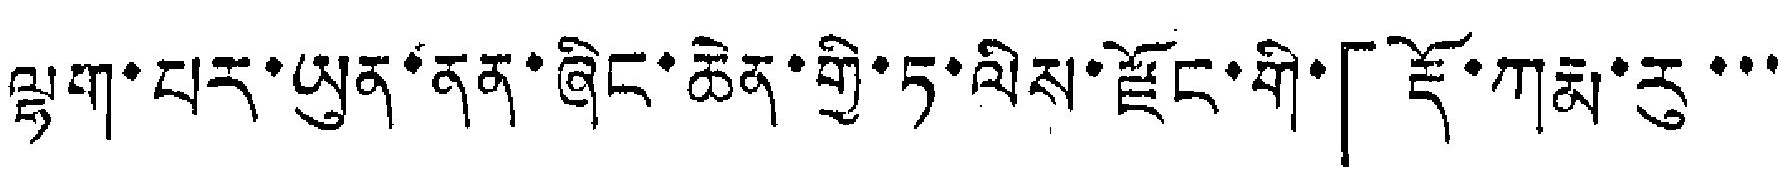ལྷག་པར་ཡུན་ནན་ཞིང་ཆེན་གྱི་ཏ་ལིས་རྫོང་གི་「རྡོ་ཀརྨ་རུ་་་
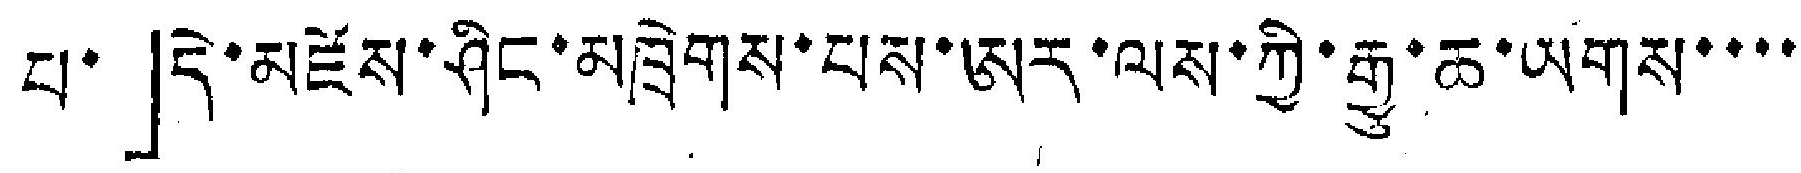པ་」དེ་མཛེས་ཤིང་མཁྲེགས་པས་ཨར་ལས་ཀྱི་རྒྱུ་ཆ་ཡགས་་་་
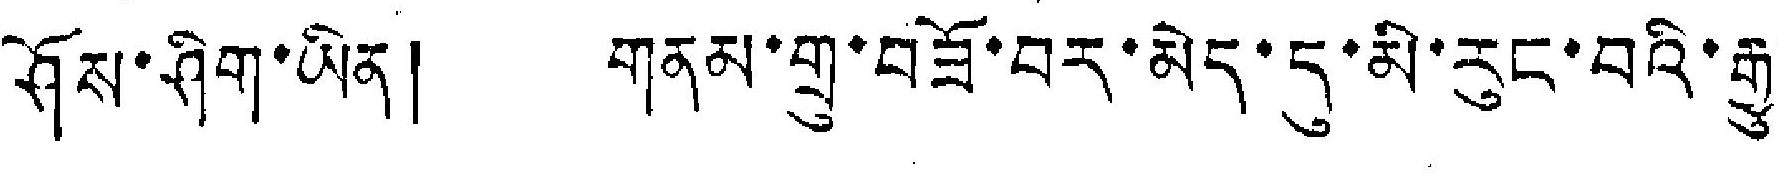ཤོས་ཤིག་ཡིན། གནམ་གྲུ་བཟོ་བར་མེད་དུ་མི་རུང་བའི་རྒྱུ་
